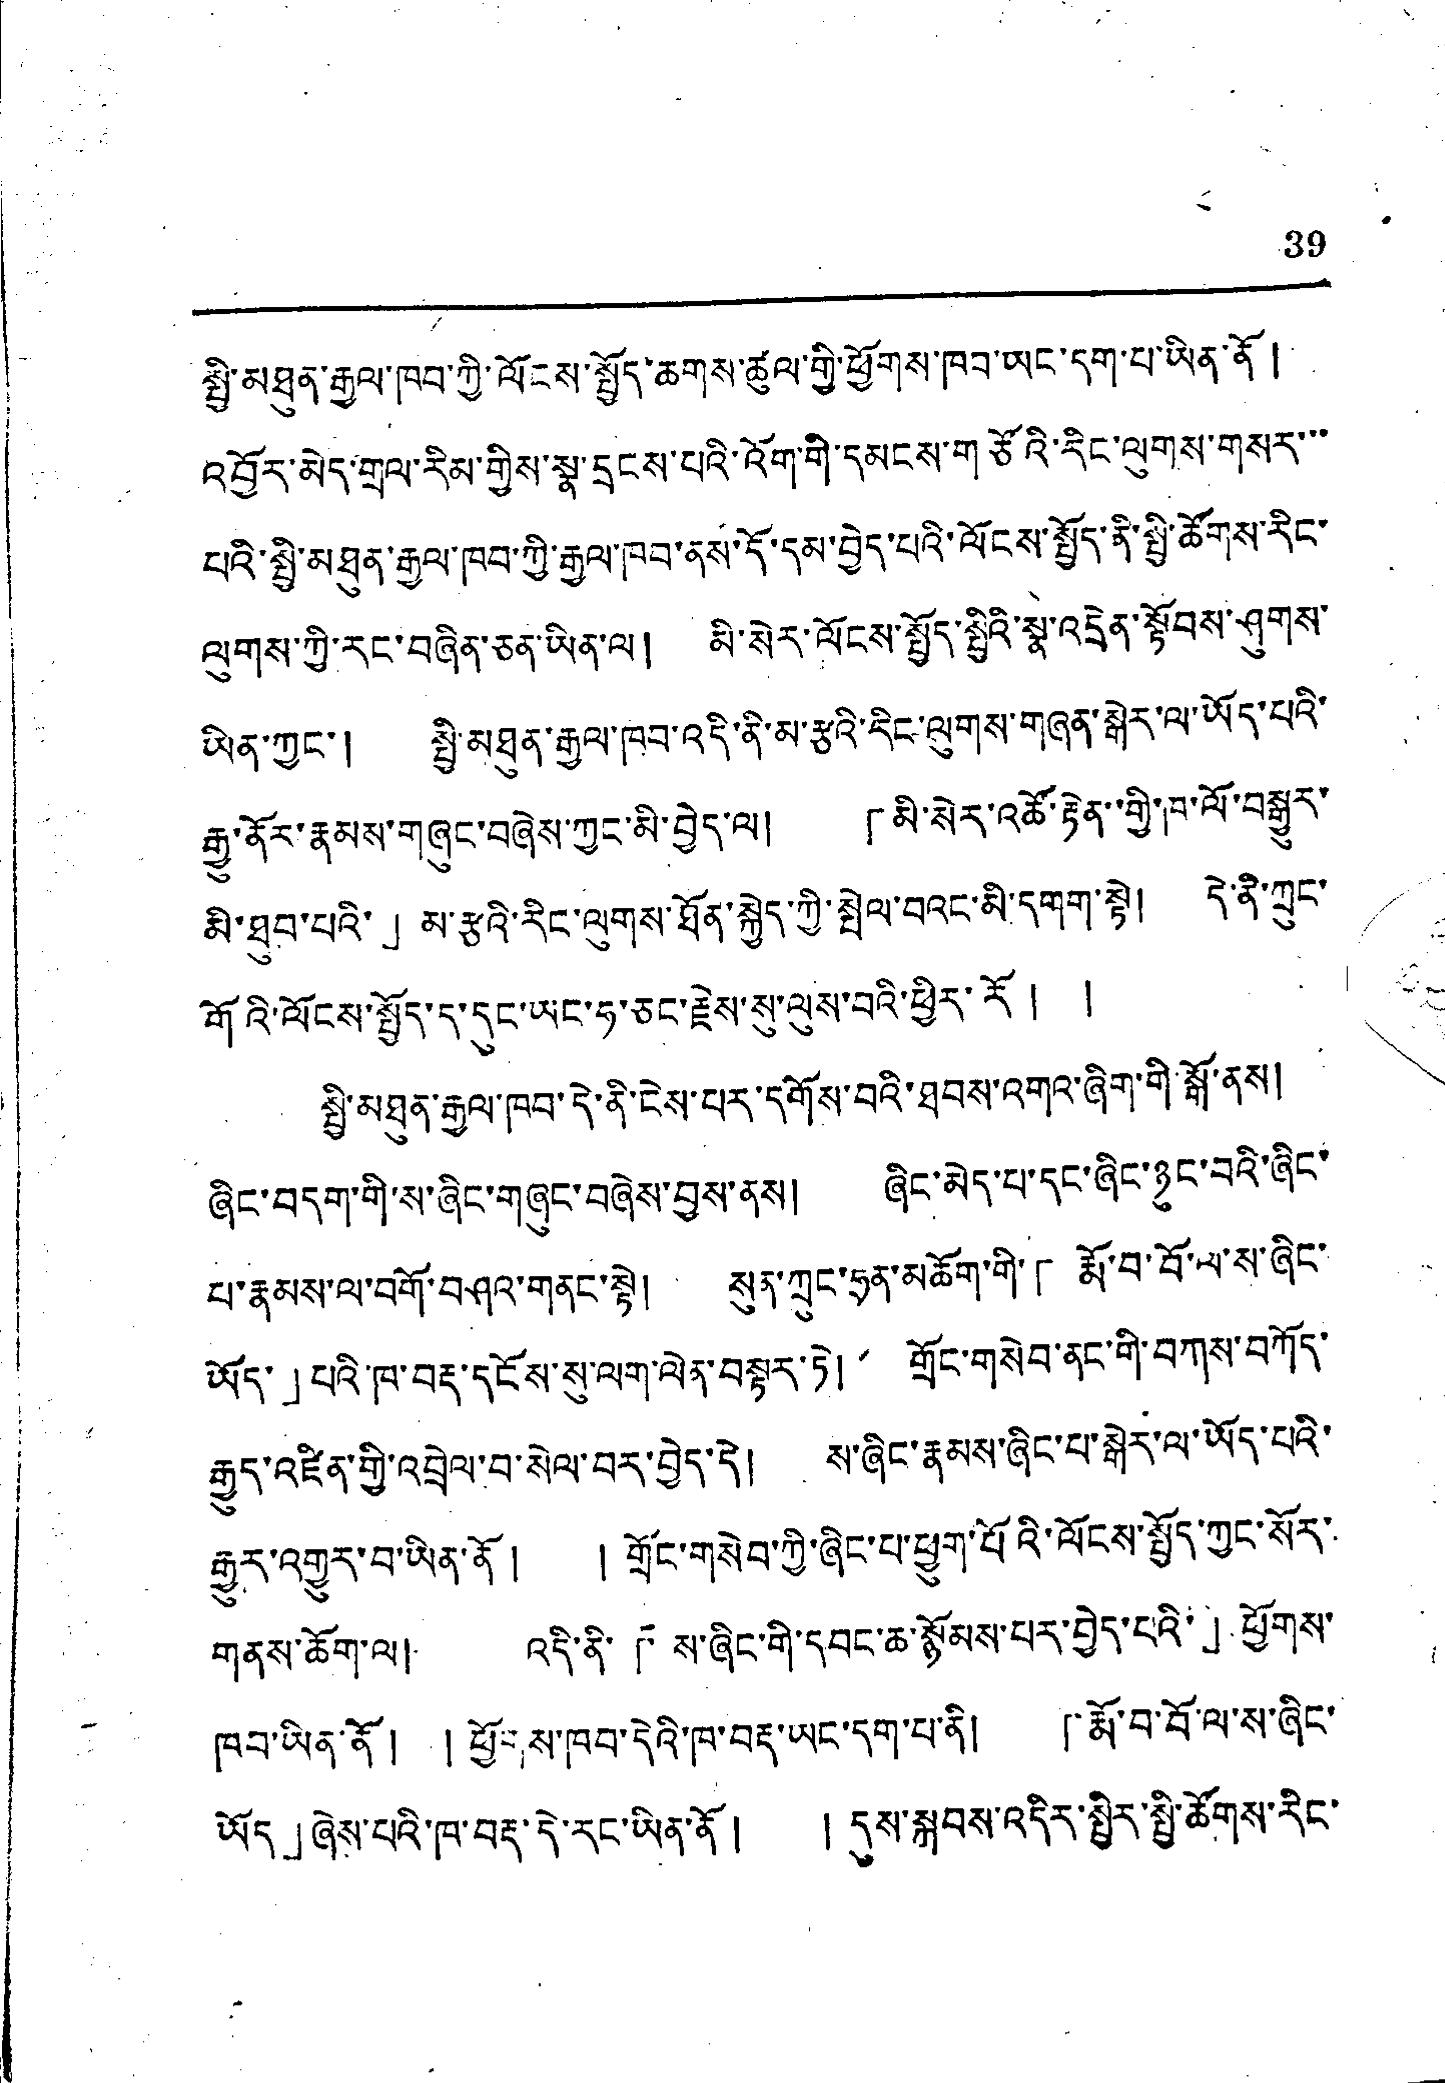39
སྤྱི་མཐུན་རྒྱལ་ཁབ་ཀྱི་ལོངས་སྤྱོད་ཆགས་ཚུལ་གྱི་ཕྱོགས་ཁབ་ཡང་དག་པ་ཡིན་ནོ།
འབྱོར་མེད་གྲལ་རིམ་གྱིས་སྣ་དྲངས་པའི་འོག་གི་དམངས་གཙོའི་རིང་ལུགས་གསར་་་
པའི་སྤྱི་མཐུན་རྒྱལ་ཁབ་ཀྱི་རྒྱལ་ཁབ་ནས་དོ་དམ་བྱེད་པའི་ལོངས་སྤྱོད་ནི་སྤྱི་ཚོགས་རིང་
ལུགས་ཀྱི་རང་བཞིན་ཅན་ཡིན་ལ། མི་སེར་ལོངས་སྤྱོད་སྤྱིའི་སྣ་འདྲེན་སྟོབས་ཤུགས་
ཡིན་ཀྱང་། སྤྱི་མཐུན་རྒྱལ་ཁབ་འདི་ནི་མ་རྩའི་རིང་ལུགས་གཞན་སྒེར་ལ་ཡོད་པའི་
རྒྱུ་ནོར་རྣམས་གཞུང་བཞེས་ཀྱང་མི་བྱེད་ལ། 「མི་སེར་འཚོ་རྟེན་གྱི་ཁ་ལོ་བསྒྱུར་
མི་ཐུབ་པའི་」མ་རྩའི་རིང་ལུགས་ཐོན་སྐྱེད་ཀྱི་སྤེལ་བའང་མི་དགག་སྟེ། དེ་ནི་ཀྲུང་་
གོའི་ལོངས་སྤྱོད་ད་དུང་ཡང་ཧ་ཅང་རྗེས་སུ་ལུས་བའི་ཕྱིར་རོ། །
སྤྱི་མཐུན་རྒྱལ་ཁབ་དེ་ནི་ངེས་པར་དགོས་བའི་ཐབས་འགའ་ཞིག་གི་སྒོ་ནས།
ཞིང་བདག་གི་ས་ཞིང་གཞུང་བཞེས་བྱས་ནས། ཞིང་མེད་པ་དང་ཞིང་ཉུང་བའི་ཞིང་
པ་རྣམས་ལ་བགོ་བཤའ་གནང་སྟེ། སུན་ཀྲུང་ཧྲན་མཆོག་གི་「རྨོ་བ་བོ་ལ་ས་ཞིང་
ཡོད་」པའི་ཁ་བརྡ་དངོས་སུ་ལག་ལེན་བསྟར་ཏེ། གྲོང་གསེབ་ནང་གི་བཀས་བཀོད་
རྒྱུད་འཛིན་གྱི་འབྲེལ་བ་སེལ་བར་བྱེད་དེ། ས་ཞིང་རྣམས་ཞིང་པ་སྒེར་ལ་ཡོད་པའི་
རྒྱུར་འགྱུར་བ་ཡིན་ནོ ། ། གྲོང་གསེབ་ཀྱི་ཞིང་པ་ཕྱུག་པོའི་ལོངས་སྤྱོད་ཀྱང་སོར་
གནས་ཆོག་ལ། འདི་ནི་「ས་ཞིང་གི་དབང་ཆ་སྙོམས་པར་བྱེད་པའི་」ཕྱོགས་
ཁབ་ཡིན་ནོ། ། ཕྱོགས་ཁབ་དེའི་ཁ་བརྡ་ཡང་དག་པ་ནི། 「རྨོ་བ་བོ་ལ་ས་ཞིང་
ཡོད」ཞེས་པའི་ཁ་བརྡ་དེ་རང་ཡིན་ནོ། །དུས་སྐབས་འདིར་སྤྱིར་སྤྱི་ཚོགས་རིང་
